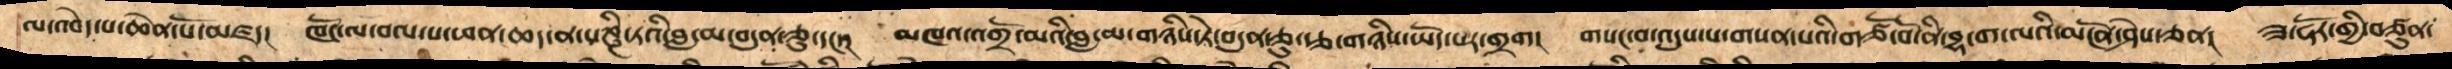ལ་འབེད་པ་ཆེན་པོ་མཛད།   ཁོང་ལ་བལ་པ་ཕན་ཆད་ན་པཎྜི་ཏའི་བླ་མ་བདུན་ཅུ་དང་།   མཁའ་འགྲོ་མའི་བླ་མ་གཉིས་ཏེ་བདུན་ཅུ་རྩ་གཉིས་ཡོད་པར་གྲག།   གསང་བ་འདུས་པ་གསན་པའི་གཙོ་བོ་ནི་བྷ་ག་ལའི་མངོན་ཤེས་ཅན།  ཟ་ཧོར་གྱི་བཙུན་
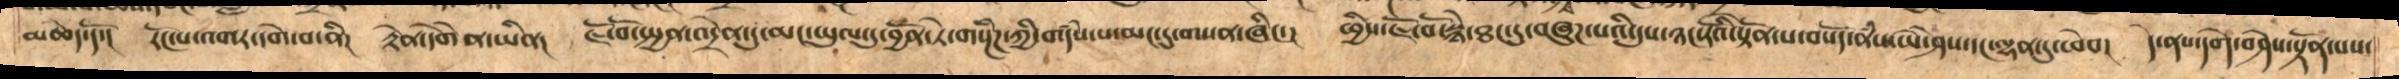མཆེད་དོ།  རོང་པ་འགར་དགེ་བ་ནི།   རྟེན་དགེནེ་ཡིན།   ཇོ་བོ་སྤྱནའདྲེན་དུ་མང་ཡུལ་དུ་བྱོན་ཏེ་གསྔཾཌ་ཀྱི་གདཾས་པ་མང་དུ་གསན་ཞིང་།   ཕྱིས་ཇོ་བོ་སྙེ་ཐང་དུ་བཞུཌ་པའི་དུས་ཉང་རོའི་སྟོན་པ་བསོད་ནཾས་ཡེ་ཤེས་དང་ལྷན་དུ་ཕེབ།   དེ་ནས་དགེ་བཤེས་སྟོན་པས་
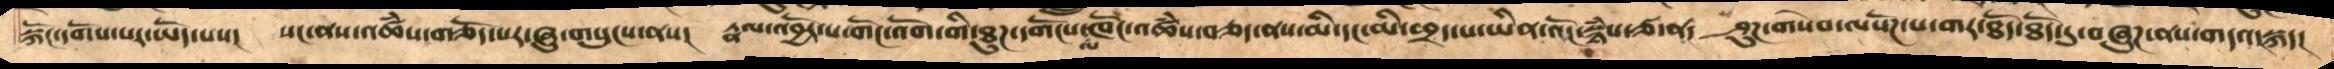སྐོང་དགོས་པར་ཡོད་པས།   སང་ནས་འཚཾས་གཅོད་པར་ཞུ་གསུངས་ནས།    རྣལ་འབྱོར་པ་གོང་འོག་གི་ཐུཌ་དགོངས་ལ་ཁོང་འཚཾས་བཅད་ནས་མི་དང་མི་ཕྲད་པ་ཡིན་འོང་སྙཾས་ཙ་ན།    ཤུགས་གསེབ་ལ་སོཌ་པ་གར་ཐོད་ཐོད་དུ་བཞུཌ་ནས་གདའ་སྐད།
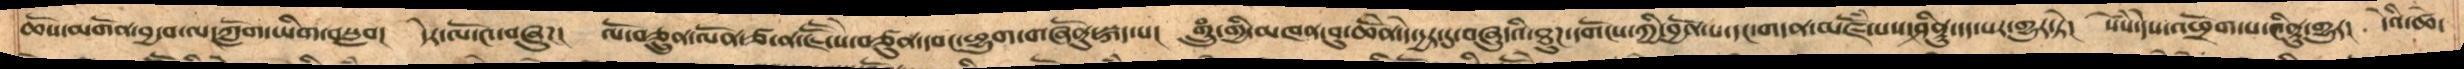ཆོས་མགོན་བྱ་བ་ལ་ཀློག་ཡིག་བསླབ།   དེར་ལོ་༤་བཞུཌ།   ལོ་བཅྲུན་ལོན་ཙ་ན་ཇཽ་སེ་བཙུན་དབང་ཕྱུག་གཞོནུ་སྐད་པ།   གྲུཾ་གྱི་མཁན་བུ་ཆེནོ་དེ་དྱར་དུ་བཞུདའི་ཐུཌ་དགོངས་ཀྱི་བྱོན་པ་དང་གདན་འཛོཾ་པས་ཤིནྟུ་དད་པར་གྱུར་ཏེ།  སེཾས་དེས་འཕྲོག་པ་༤ིནུ་གྱུར།   དེའི་ཚེ་
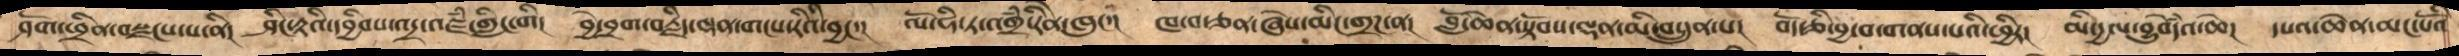ཤོག་འཕྲིན་བསྫངས་པ་ནི།   ཤིང་རྟའི་དབྱིབས་འདྲ་འཛཾ་གླིང་གི།    བྱེ་བྲག་བརྗིད་ལྡན་གངས་རིའི་བྱང་།   ལོ་ཧི་ཏ་འགྲཾ་རིེན་ཁུང་།   ཁ་བ་ཅན་ཞེས་མིང་གྲཌ་ན།   བློ་ཆེན་སྟོབས་ལྡན་མི་བསྲུན་པ།   བོད་ཅི་བྱ་བ་གནས་པའི་ཕྱིར།   མི་དྱལ་བྱུབེདཾའ་ཆེ།   དཔའ་ཆེན་མང་པོའི་
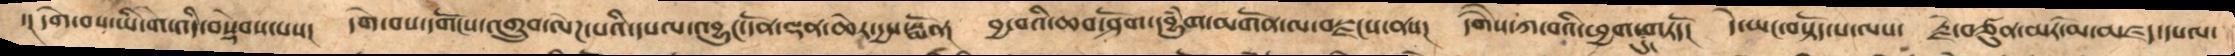་།དགེ་བས་ཡི་གེ་འདི་བསྡེབས་པས།   དགེ་བས་དགོངས་འགྲུབ་ལེཌ་པའི་དཔལ་འབྱུང་དོན་ལྡན་ཆེར་དྱས་སྨོན།  བྱ་བའི་ཆབ་ཤོག་དབྱུཾག་མགོན་ལ་བསྫངས་ནས།   དགཻས་ཀ་བའི་ཕྱག་དུ་གཏདོ།   དེ་ཡང་བསྟོད་པ་ལས་   རྗེ་བཙུན་མར་མེ་མཛད་དཔལ་
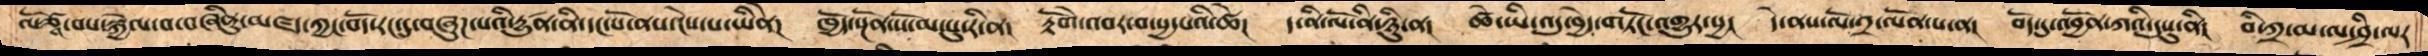ལོཙཱ་བས་སྐྱེལ་བ་བཞིནུ་མཛད་ཀྱང་་བོད་རང་དུ་བཞུཌ་པའི་དྱུཚན་ནི་དང་པོ་ནས་་ངེས་པ་ཡིནེ།   ཁྱོད་སྔོན་པོ་མ་སུ་རི་ན།   རྟོགེ་འབར་བ་སྱ་པའི་ཚེ།   ད་ནི་ལོ་ནི་ཉིུ་ན།   ཚེ་ཡི་འདུ་བྱེད་གཏོང་འགྱུར་སྱ།   དེ་ནས་ལོ་༢་ལོན་པ་ན།   བོད་དུ་འབྱོན་ཀའི་དུསུ་ནི།   བི་ཀྲ་མ་ལ་ཤྲི་ལར་
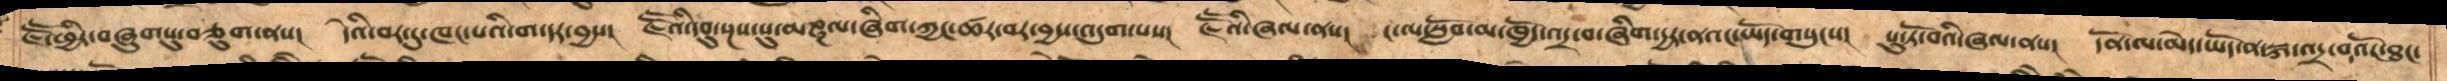ཇཽ་ཕྱིར་བཞུགསུ་བཅུག་ནས།   དེའི་བར་དུ་ཁང་བའི་ག་དར་བྱས།  ཇཽའི་དབུ་སྔས་སུ་མཎྜལ་ཞིག་ཀྱང་ཚར་བར་བྱས་འདུག་པས།  ཇཽའི་ཞལ་ནས།  ང་ལ་སློབ་མ་ཁྱོད་འདྲ་བ་ཞིག་དྱར་ནའང་ཡོད་གསུངས།   པུ་ཏོ་བའི་ཞལ་ནས།  དོན་ལ་མེད་ཡོད་ན་སྐ་འདྲ་བའོང་ཐང་
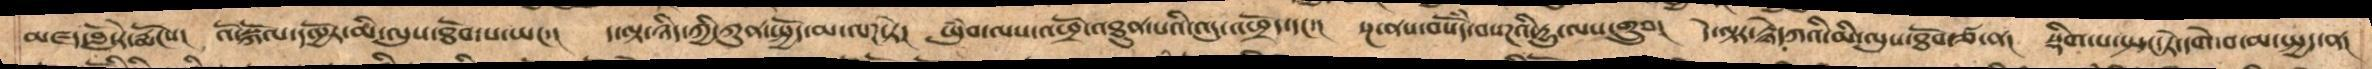མཛད་བློ་རེ་རྨོངས།   འོ་སྐོལ་དལྱོར་མི་ལུས་ཐོབ་པ་ཡང་།   ད་ལྟ་ཉིད་ཀྱི་སྐུན་སྤྱོད་མ་ལཌ་ཏེ།   ཡུཾབ་ལས་འཕྲོ་འཐུན་པའི་འདུ་འཕྲོད་དང་།   སྔ་ནས་བསོཾད་བསཌའི་དྱུ་ལས་གྲུབ།   དེ་ལྟར་རྙེདཀའི་མི་ལུས་ཐོབ་ཙ་ན།   སྡིག་པ་སྤང་ཏེ་དགེ་བ་མ་སྤྱད་ན།
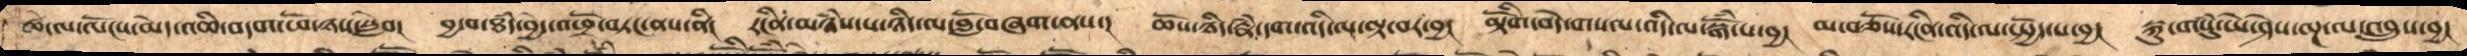ཚེ་ལ་ལོངས་མེད་འཆི་བདག་ཕོ་ཉས་སླེབ།   བྱ་བ་ཐཾད་བྱེ་འཕྲོ་བཏང་ནས་ནི།  རངིན་མཉཾས་པ་ཉིད་ལ་བློ་བཞག་ནས་།  ཆོས་ཉིད་རྣཾ་དག་འདི་ལ་ལྟ་བར་བྱ།   མྟོིག་བདེ་གསལ་འདི་ལ་སྒོཾ་པ་བྱ།   མ་བཅོས་རངིན་འདི་ལ་སྤྱོད་པ་བྱ།   སྐུ་གསུཾ་ཡེ་ཤེས་ལྔ་ལ་འབྲུས་བྱ།
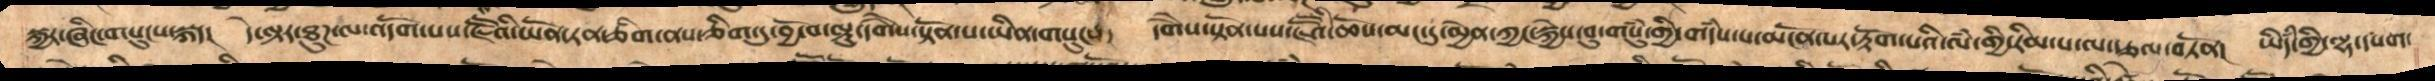སྐྱར་ཞིང་གསུང་སྐད།  དེ་ལྟར་ཐུཌ་ལ་འདོག་པས་ཇཽའི་ཡོན་ཏན་ཅིག་ནས་ཅིག་དུ་བྱོ་བ་ལྟུ་དགཻས་སྟོན་པ་ཡིན་གསུངས་།   དགཻས་སྟོན་པས་ཇཽའི་ཆོས་མང་དུ་མྱེན་ཀྱང་སྐྱེས་བུ་གསུཾ་གྱི་གདཾས་པ་མངོན་པར་རྟོག་པའི་ལཾ་གྱི་རིམ་པ་ལ་རྩལ་བཏོན། ཡིཾད་གྱི་ལྷ་དཔག་
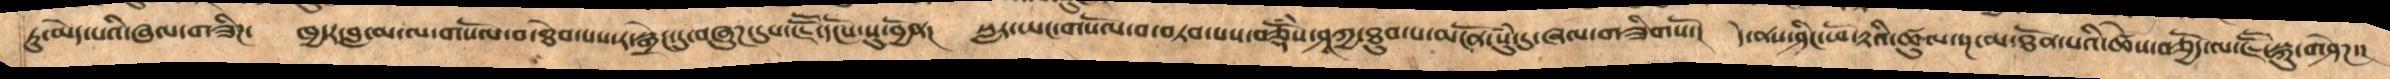ཏུ་མེད་པའི་ཞལ་གཟིཌ།  ཁྱདར་བླ་མ་ལ་གསོལ་བ་ཐེབ་པས་ར་སྒྲེང་དུ་བཞུཌ་དུས་ཇཽ་དངོས་སུ་བྱོན།   སླར་ཡང་གསོལ་བ་བཏབ་པས་བཅྡོཾས་ཤཱཀྱ་ཐུབ་པ་མངོན་སུཾ་དུ་གཟིགསོ་།  དེ་ནས་ཤིང་ཕོ་རྟའི་ཚུལ་སྔ་མ་ཐོན་པའི་ཚེས་བཅྱོད་ལ་ཇཽ་སྐུ་གཤེཌ་།
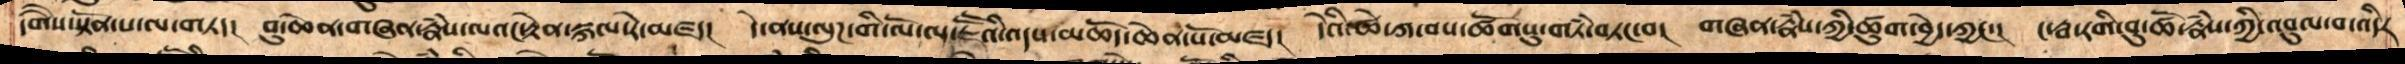དགཻས་སྟོན་པ་ལ་གཏད།  བུ་ཆེན་གཞན་རྣཾས་ལའང་རྟེན་སྐལ་རེ་མཛད།  དེ་ནས་ལུཌ་གི་ལོ་ལ་ཇཽའི་འདས་མཆོད་ཆེན་པོ་མཛད།  དེའི་ཚེ་ཀ་བས་ཚོགསུ་གཏཾ་བཏང་བ།   གཞན་རྣཾས་ཀྱི་ཚུག་བྱེད་ཀྱང་།   ང་རྦ་རགི་བུ་ཚོ་རྣཾས་ཀྱི་འབུལ་བ་འདིར
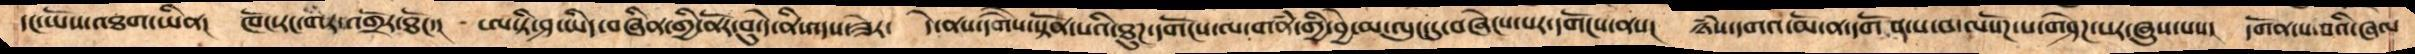དང་ཡོས་འཐག་ཡིན།  ཁོང་རང་གར་འགྲོར་ཐོང་།  ཨ་ཏི་ཤ་ཡིད་བཞིན་གྱི་ནོར་བུ་དེ་ནི་འདས་ཟེར།  དེ་ནས་དགཻས་སྟོན་པའི་ཐུཌ་དགོངས་ལ་གནཾ་གྱི་བྱེ་མ་ལུང་དུ་བཞེངས་པར་དགོངས་ནས། ཉཾས་དགའ་མོ་ན་དགོན་པ་བ་ལསོཌ་པ་གཤེཌ་པར་ཞུས་པས།   དགོན་པ་བའི་ཞལ
